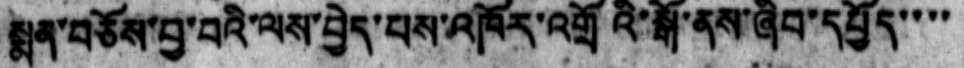སྨན་བཅོས་བྱ་བའི་ལས་བྱེད་པས་འཁོར་འགྲོའི་སྒོ་ནས་ཞིབ་དཔྱོད་་་་
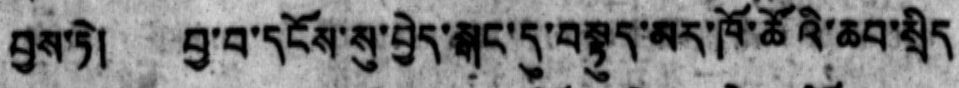བྱས་ཏེ།  བྱ་བ་དངོས་སུ་བྱེད་སྒང་དུ་བསྟུད་མར་ཁོ་ཚོའི་ཆབ་སྲིད
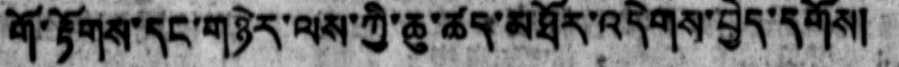གོ་རྟོགས་དང་གཉེར་ལས་ཀྱི་ཆུ་ཚད་མཐོར་འདེགས་བྱེད་དགོས།
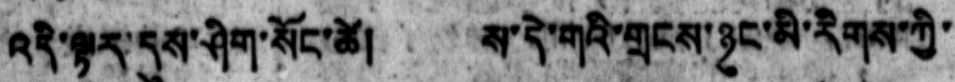འདི་སྟར་དུས་ཤིག་སོང་ཚེ། ས་དེ་གའི་གྲངས་ཉུང་མི་རིགས་ཀྱི་
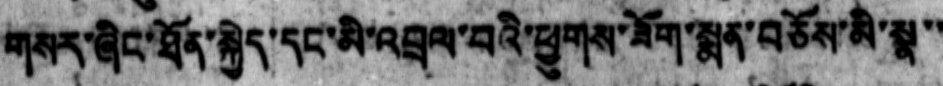གསར་ཞིང་ཐོན་སྐྱེད་དང་མི་འབྲལ་བའི་ཕྱུགས་ཟོག་སྨན་བཅོས་མི་སྣ་་
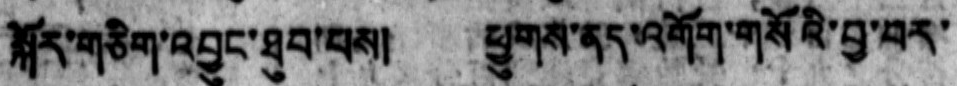སྐོར་གཅིག་འབྱུང་ཐུབ་པས། ཕྱུགས་ནད་འགོག་གསོའི་བྱ་བར་
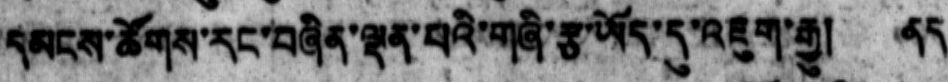དམངས་ཚོགས་རང་བཞིན་ལྡན་པའི་གཞི་རྩ་ཡོད་དུ་འཇུག་རྒྱུ། ནད་
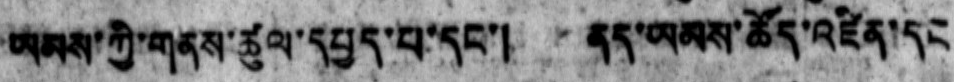ཡམས་ཀྱི་གནས་ཚུལ་དཔྱད་པ་དང་། དད་ཡམས་ཚོད་འཛིན་དང
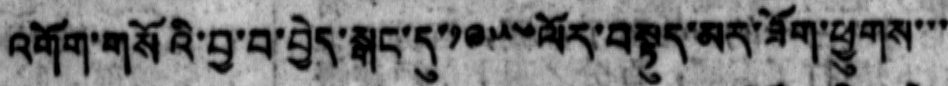འགོག་གསོའི་བྱ་བ་བྱེད་སྒང་དུ་ཀམ་མ་ལོར་བསྟུད་མར་ཐོག་ཕྱུགས་་་
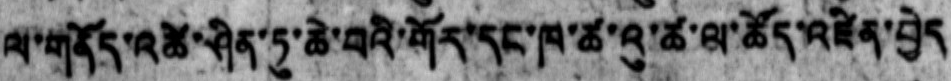ལ་གནོད་འཚེ་ཤིན་ཏུ་ཆེ་བའི་གོར་དང་ཁ་ཚ་འུ་ཚ་ལ་ཚོད་འཛིན་བྱེད་
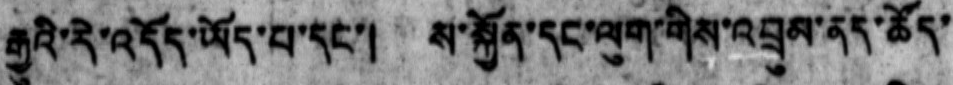རྒྱུའི་རེ་འདོད་ཡོད་པ་དང་།   ས་སྐྱོན་དང་ལུག་གིས་འབྲུམ་ནད་ཚོད་
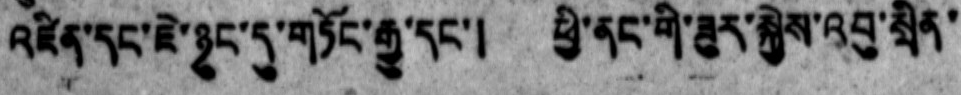འཛིན་དང་ཇེ་ཉུང་དུ་གཏོང་རྒྱུ་དང་།  ཕྱི་ནང་གི་ཟུར་སྐྱེས་འབུ་སྲིན་
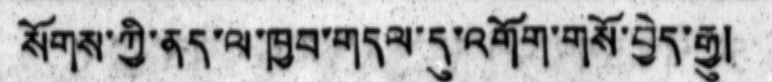སོགས་ཀྱི་ནད་ལ་ཁྱབ་གདལ་དུ་འགོག་གསོ་བྱེད་རྒྱུ།
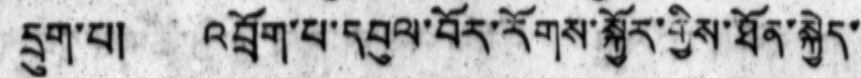དྲུག་པ།  འབྲོག་པ་དབུལ་བོར་རོགས་སྐྱོར་གྱིས་ཐོན་སྐྱེད་
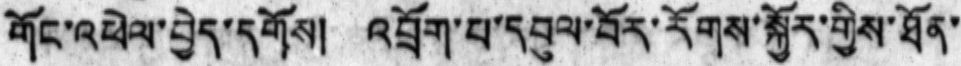གོང་འཕེལ་བྱེད་དགོས།  འབྲོག་པ་དབུལ་བོར་རོགས་སྐྱོར་གྱིས་ཐོན་
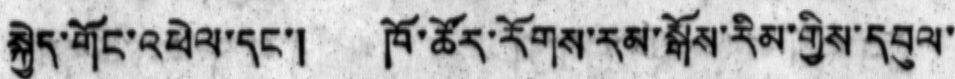སྐྱེད་གོང་འཕེལ་དང་། ཁོ་ཚོར་རོགས་རམ་སྒོས་རིམ་གྱིས་དབུལ་
